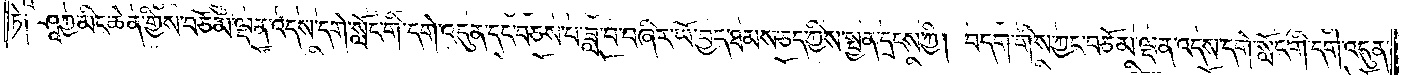ཏེ༑ ཤཱཀྱ་མིང་ཆེན་གྱིས་བཅོམ་ལྡན་འདས་དགེ་སློང་གི་དགེ་འདུན་དང་བཅས་པ་ཟླ་བ་བཞིར་ཡོ་བྱད་ཐམས་ཅད་ཀྱིས་སྤྱན་དྲངས་ཀྱི། བདག་གིས་ཀྱང་བཅོམ་ལྡན་འདས་དགེ་སློང་གི་དགེ་འདུན་
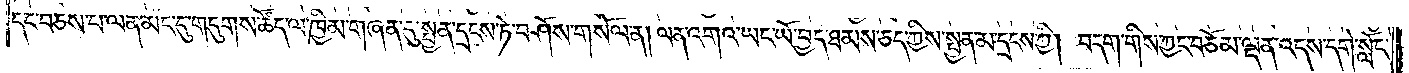དང་བཅས་པ་ལན་མང་དུ་གདུགས་ཚོད་ལ་ཁྱིམ་གཞན་དུ་སྤྱན་དྲངས་ཏེ་བཤོས་གསོལ་ན། ལན་འགའ་ཡང་ཡོ་བྱད་ཐམས་ཅད་ཀྱིས་སྤྱན་མ་དྲངས་ཀྱི། བདག་གིས་ཀྱང་བཅོམ་ལྡན་འདས་དགེ་སློང་
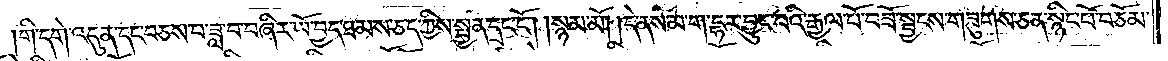གི་དགེ་འདུན་དང་བཅས་པ་ཟླ་བ་བཞིར་ཡོ་བྱད་ཐམས་ཅད་ཀྱིས་སྤྱན་དྲང་ངོ༌། །སྙམ་མོ། །དེ་ནས་མ་ག་དྷར་བྱུང་བའི་རྒྱལ་པོ་བཟོ་སྦྱངས་གཟུགས་ཅན་སྙིང་པོ་བཅོམ་
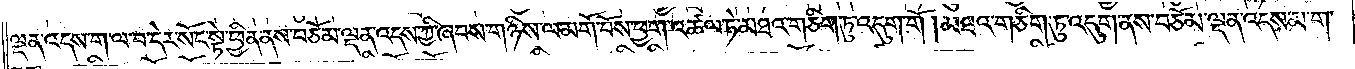ལྡན་འདས་ག་ལ་བ་དེར་སོང་སྟེ་ཕྱིན་ནས་བཅོམ་ལྡན་འདས་ཀྱི་ཞབས་གཉིས་ལ་མགོ་བོས་ཕྱག་འཚལ་ཏེ་མཐའ་གཅིག་ཏུ་འདུག་གོ །མཐའ་གཅིག་ཏུ་འདུག་ནས་བཅོམ་ལྡན་འདས་མ་ག་
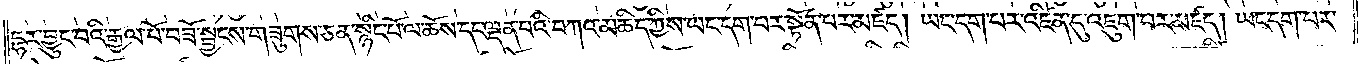དྷར་བྱུང་བའི་རྒྱལ་པོ་བཟོ་སྦྱངས་གཟུགས་ཅན་སྙིང་པོ་ལ་ཆོས་དང་ལྡན་པའི་བཀའ་མཆིད་ཀྱིས་ཡང་དག་པར་སྟོན་པར་མཛད། ཡང་དག་པར་འཛིན་དུ་འཇུག་པར་མཛད། ཡང་དག་པར་
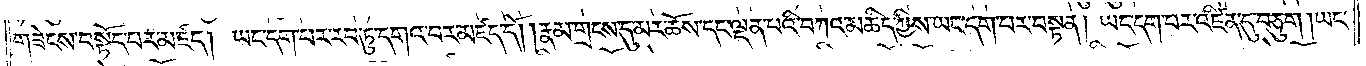གཟེངས་བསྟོད་པར་མཛད། ཡང་དག་པར་རབ་ཏུ་དགའ་བར་མཛད་དོ། །རྣམ་གྲངས་དུ་མར་ཆོས་དང་ལྡན་པའི་བཀའ་མཆིད་ཀྱིས་ཡང་དག་པར་བསྟན། ཡང་དག་པར་འཛིན་དུ་བཅུག །ཡང་
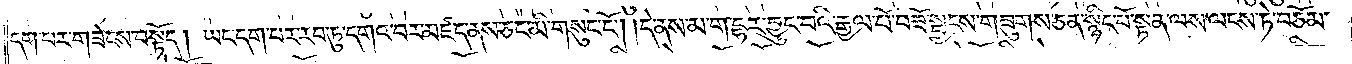དག་པར་གཟེངས་བསྟོད། ཡང་དག་པར་རབ་ཏུ་དགའ་བར་མཛད་ནས་ཅང་མི་གསུང་ངོ༌། །དེ་ནས་མ་ག་དྷར་བྱུང་བའི་རྒྱལ་པོ་བཟོ་སྦྱངས་གཟུགས་ཅན་སྙིང་པོ་སྟན་ལས་ལངས་ཏེ་བཅོམ་
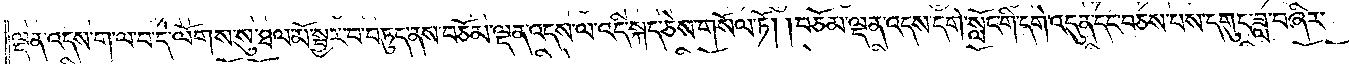ལྡན་འདས་ག་ལ་བ་དེ་ལོགས་སུ་ཐལ་མོ་སྦྱར་བ་བཏུད་ནས་བཅོམ་ལྡན་འདས་ལ་འདི་སྐད་ཅེས་གསོལ་ཏོ། །བཅོམ་ལྡན་འདས་དགེ་སློང་གི་དགེ་འདུན་དང་བཅས་པས་དགུང་ཟླ་བཞིར་
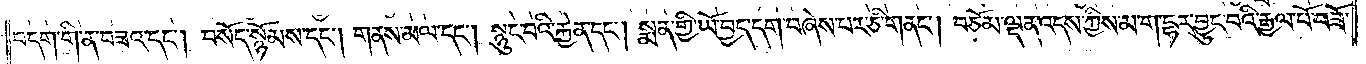བདག་གི་ན་བཟའ་དང༌། བསོད་སྙོམས་དང༌། གནས་མལ་དང༌། སྙུང་བའི་རྐྱེན་དང༌། སྨན་གྱི་ཡོ་བྱད་དག་བཞེས་པར་ཅི་གནང༌། བཅོམ་ལྡན་འདས་ཀྱིས་མ་ག་དྷར་བྱུང་བའི་རྒྱལ་པོ་བཟོ་
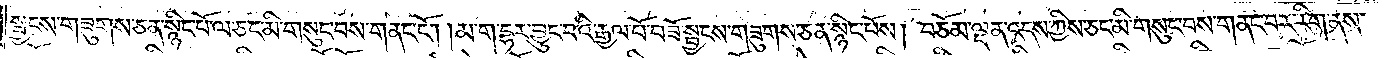སྦྱངས་གཟུགས་ཅན་སྙིང་པོ་ལ་ཅང་མི་གསུང་བས་གནང་ངོ༌། །མ་ག་དྷར་བྱུང་བའི་རྒྱལ་པོ་བཟོ་སྦྱངས་གཟུགས་ཅན་སྙིང་པོས། བཅོམ་ལྡན་འདས་ཀྱིས་ཅང་མི་གསུང་བས་གནང་བར་རིག་ནས་
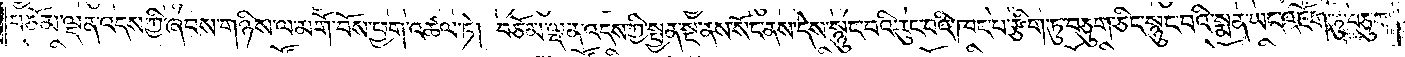བཅོམ་ལྡན་འདས་ཀྱི་ཞབས་གཉིས་ལ་མགོ་བོས་ཕྱག་འཚལ་ཏེ། བཅོམ་ལྡན་འདས་ཀྱི་སྤྱན་སྔ་ནས་སོང་ནས་དེས་སྙུང་བའི་རུང་བའི་ཁང་པ་རྩིག་ཏུ་བཅུག་ཅིང་སྙུང་བའི་སྨན་ཡང་འཇོག་ཏུ་བཅུག་
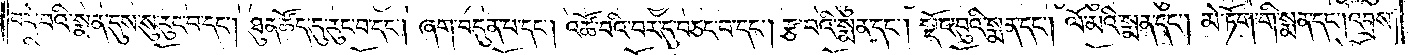བདེ་བའི་སྨན་དུས་སུ་རུང་བ་དང༌། ཐུན་ཚོད་དུ་རུང་བ་དང༌། ཞག་བདུན་པ་དང༌། འཚོ་བའི་བར་དུ་བཅང་བ་དང༌། རྩ་བའི་སྨན་དང༌། སྡོང་བུའི་སྨན་དང༌། ལོ་མའི་སྨན་དང༌། མེ་ཏོག་གི་སྨན་དང༌། འབྲས་
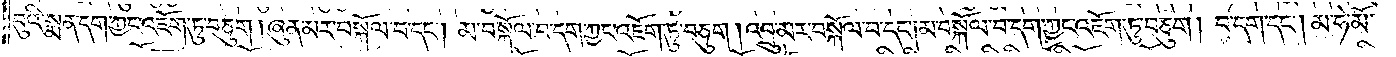བུའི་སྨན་དག་ཀྱང་འཇོག་ཏུ་བཅུག །ཞུན་མར་བསྐོལ་བ་དང༌། མ་བསྐོལ་བ་དག་ཀྱང་འཇོག་ཏུ་བཅུག །འབྲུ་མར་བསྐོལ་བ་དང༌། མ་བསྐོལ་བ་དག་ཀྱང་འཇོག་ཏུ་བཅུག །བ་དག་དང༌། མ་ཧེ་མོ་
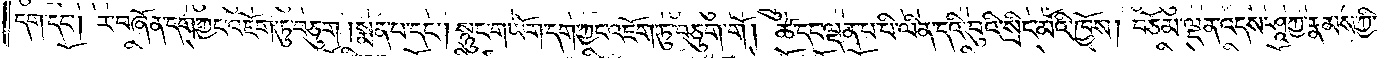དག་དང༌། ར་བཞོན་དག་ཀྱང་འཇོག་ཏུ་བཅུག །སྨན་པ་དང༌། སྙུང་གཡོག་དག་ཀྱང་འཇོག་ཏུ་བཅུག་གོ། ཚེ་དང་ལྡན་པ་པི་ལིན་དའི་བུའི་སྲིང་མོའི་ཁྱོས། བཅོམ་ལྡན་འདས་ཤཱཀྱ་རྣམས་ཀྱི་
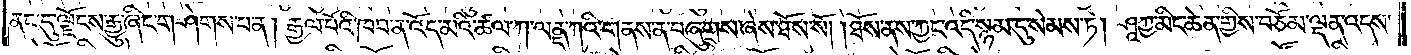ནང་དུ་ལྗོངས་རྒྱུ་ཞིང་གཤེགས་པ་ན། རྒྱལ་པོའི་ཁབ་ན་འོད་མའི་ཚལ་ཀ་ལནྡ་ཀའི་གནས་ན་བཞུགས་ཞེས་ཐོས་སོ། །ཐོས་ནས་ཀྱང་འདི་སྙམ་དུ་སེམས་ཏེ། ཤཱཀྱ་མིང་ཆེན་གྱིས་བཅོམ་ལྡན་འདས་
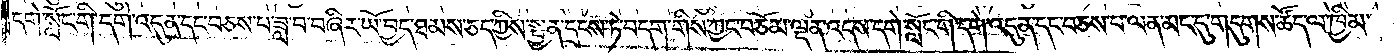དགེ་སློང་གི་དགེ་འདུན་དང་བཅས་པ་ཟླ་བ་བཞིར་ཡོ་བྱད་ཐམས་ཅད་ཀྱིས་སྤྱན་དྲངས་ཏེ་བདག་གིས་ཀྱང་བཅོམ་ལྡན་འདས་དགེ་སློང་གི་དགེ་འདུན་དང་བཅས་པ་ལན་མང་དུ་གདུགས་ཚོད་ལ་ཁྱིམ་
